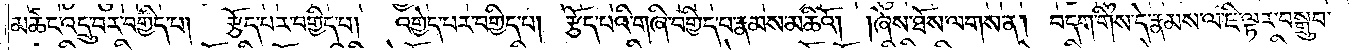མཚང་འདྲུ་བར་བགྱིད་པ། རྩོད་པར་བགྱིད་པ། འགྱེད་པར་བགྱིད་པ། རྩོད་པའི་གཞི་བགྱིད་པ་རྣམས་མཆིའོ། །ཞེས་ཐོས་ལགས་ན། བདག་གིས་དེ་རྣམས་ལ་ཇི་ལྟར་བསྒྲུབ་
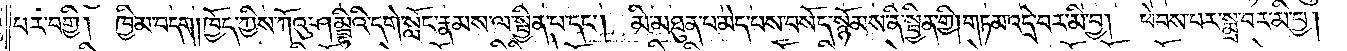པར་བགྱི། ཁྱིམ་བདག། ཁྱོད་ཀྱིས་ཀོའུ་ཤམྦྷིའི་དགེ་སློང་རྣམས་ལ་སྦྱིན་པ་དང༌། མི་མཐུན་པ་མེད་པས་བསོད་སྙོམས་ནི་སྦྱིན་གྱི། གཏམ་འདྲི་བར་མི་བྱ། ཕེབས་པར་སྨྲ་བར་མི་བྱ།
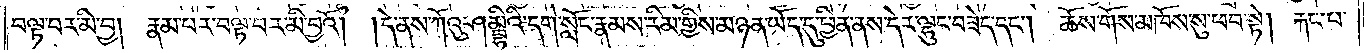བལྟ་བར་མི་བྱ། རྣམ་པར་བལྟ་བར་མི་བྱའོ། །དེ་ནས་ཀོའུ་ཤམྦྷིའི་དགེ་སློང་རྣམས་རིམ་གྱིས་མཉན་ཡོད་དུ་ཕྱིན་ནས་དེར་ལྷུང་བཟེད་དང༌། ཆོས་གོས་མཁོས་སུ་ཕབ་སྟེ། རྐང་པ་
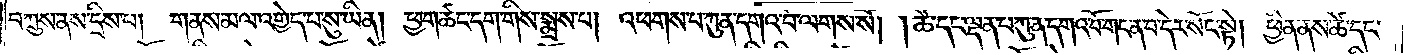བཀྲུས་ནས་དྲིས་པ།<gap>གནས་མལ་འགྱེད་པ་སུ་ཡིན། ཕྱག་ཚང་དག་གིས་སྨྲས་པ། འཕགས་པ་ཀུན་དགའ་བོ་ལགས་སོ། །ཚེ་དང་ལྡན་པ་ཀུན་དགའ་བོ་གང་ན་བ་དེར་སོང་སྟེ། ཕྱིན་ན་ཚེ་དང་
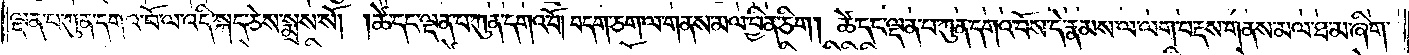ལྡན་པ་ཀུན་དགའ་བོ་ལ་འདི་སྐད་ཅེས་སྨྲས་སོ། །ཚེ་དང་ལྡན་པ་ཀུན་དགའ་བོས་བདག་ཅག་ལ་གནས་མལ་བྱིན་ཅིག། ཚེ་དང་ལྡན་པ་ཀུན་དགའ་བོས་དེ་རྣམས་ལ་ལག་བརྡས་གནས་མལ་ཐ་མ་ཞིག་
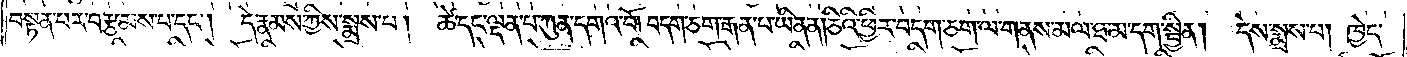བསྟན་པར་བརྩམས་པ་དང༌། དེ་རྣམས་ཀྱིས་སྨྲས་པ། ཚེ་དང་ལྡན་པ་ཀུན་དགའ་བོ། བདག་ཅག་རྒན་པ་ཡིན་ན། ཅིའི་ཕྱིར་བདག་ཅག་ལ་གནས་མལ་ཐ་མ་དག་སྦྱིན། དེ་སྨྲས་པ། ཁྱེད་
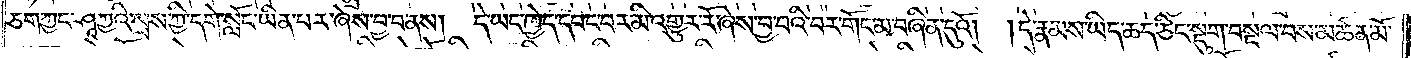ཅག་ཀྱང་ཤཱཀྱའི་སྲས་ཀྱི་དགེ་སློང་ཡིན་པར་ཞེས་བྱ་བ་ནས། དེ་ཡང་ཁྱེད་དབང་བར་མི་འགྱུར་རོ་ཞེས་བྱ་བའི་བར་གོང་མ་བཞིན་དུའོ། །དེ་རྣམས་ཡིད་ཆད་ཅིང་སྡུག་བསྔལ་བས་མཚན་མོ་
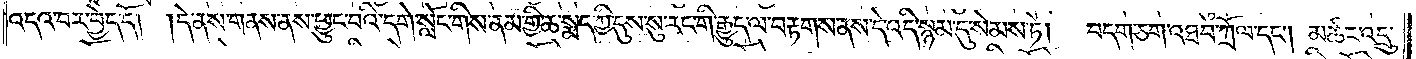འདའ་བར་བྱེད་དོ། །དེ་ནས་གནས་ནས་ཕྱུང་བའི་དགེ་སློང་གིས་ནམ་གྱི་ཆ་སྨད་ཀྱི་དུས་སུ་རང་གི་རྒྱུད་ལ་བརྟགས་ནས་དེ་འདི་སྙམ་དུ་སེམས་ཏེ།<gap>བདག་ཅག་འཐབ་ཀྲོལ་དང༌། མཚང་འདྲུ་
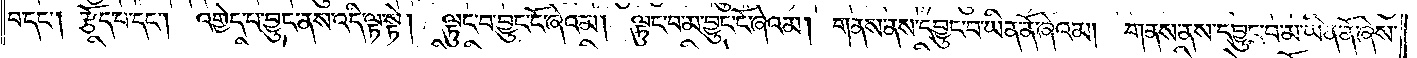བ་དང༌། རྩོད་པ་དང༌། འགྱེད་པ་བྱུང་ནས་འདི་ལྟ་སྟེ། ལྟུང་བ་བྱུང་ངོ་ཞེའམ། ལྟུང་བ་མ་བྱུང་ངོ་ཞེའམ། གནས་ནས་དབྱུང་བ་ཡིན་ནོ་ཞེའམ། གནས་ནས་དབྱུང་བ་མ་ཡིན་ནོ་ཞེས་
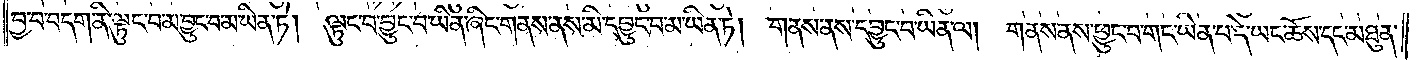བྱ་བ་བདག་ནི་ལྟུང་བ་མ་བྱུང་བ་མ་ཡིན་ཏེ། ལྟུང་བ་བྱུང་བ་ཡིན་ཞིང་གནས་ནས་མི་དབྱུང་བ་མ་ཡིན་ཏེ། གནས་ནས་དབྱུང་བ་ཡིན་ལ། གནས་ནས་ཕྱུང་བ་གང་ཡིན་པ་དེ་ཡང་ཆོས་དང་མཐུན་
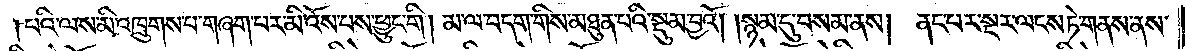པའི་ལས་མི་འཁྲུགས་པ་གཞག་པར་མི་འོས་པས་ཕྱུང་གི། མ་ལ་བདག་གིས་མཐུན་པའི་སྡུམ་བྱའོ། །སྙམ་དུ་བསམ་ནས། ནང་པར་སྔར་ལངས་ཏེ་གནས་ནས་
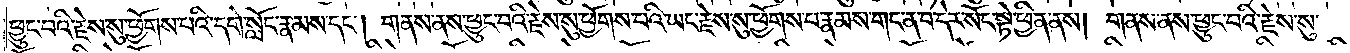ཕྱུང་བའི་རྗེས་སུ་ཕྱོགས་པའི་དགེ་སློང་རྣམས་དང༌། གནས་ནས་ཕྱུང་བའི་རྗེས་སུ་ཕྱོགས་པའི་ཡང་རྗེས་སུ་ཕྱོགས་པ་རྣམས་གང་ན་བ་དེར་སོང་སྟེ་ཕྱིན་ནས། གནས་ནས་ཕྱུང་བའི་རྗེས་སུ་
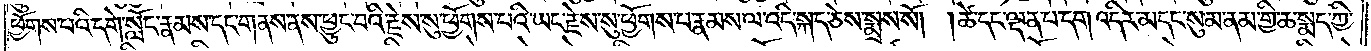ཕྱོགས་པའི་དགེ་སློང་རྣམས་དང་གནས་ནས་ཕྱུང་བའི་རྗེས་སུ་ཕྱོགས་པའི་ཡང་རྗེས་སུ་ཕྱོགས་པ་རྣམས་ལ་འདི་སྐད་ཅེས་སྨྲས་སོ། །ཚེ་དང་ལྡན་པ་དག་འདིར་མདང་སུམ་ནམ་གྱི་ཆ་སྨད་ཀྱི་
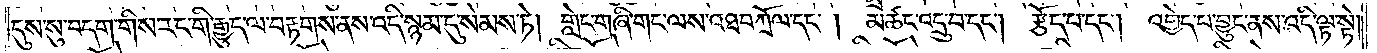དུས་སུ་བདག་གིས་རང་གི་རྒྱུད་ལ་བརྟགས་ནས་འདི་སྙམ་དུ་སེམས་ཏེ། གླེང་གཞི་གང་ལས་འཐབ་ཀྲོལ་དང༌། མཚང་འདྲུ་བ་དང༌། རྩོད་པ་དང༌། འགྱེད་པ་བྱུང་ནས་འདི་ལྟ་སྟེ་
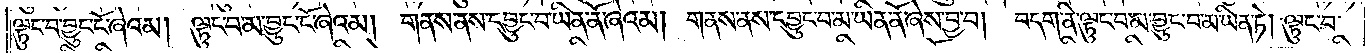ལྟུང་བ་བྱུང་ངོ་ཞེའམ། ལྟུང་བ་མ་བྱུང་ངོ་ཞེའམ། གནས་ནས་དབྱུང་བ་ཡིན་ནོ་ཞེའམ། གནས་ནས་དབྱུང་བ་མ་ཡིན་ནོ་ཞེས་བྱ་བ། བདག་ནི་ལྟུང་བ་མ་བྱུང་བ་མ་ཡིན་ཏེ། ལྟུང་བ་
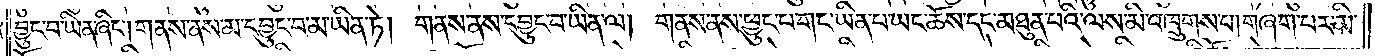བྱུང་བ་ཡིན་ཞིང༌། གནས་ནས་མ་དབྱུང་བ་མ་ཡིན་ཏེ། གནས་ནས་དབྱུང་བ་ཡིན་ལ། གནས་ནས་ཕྱུང་བ་གང་ཡིན་པ་ཡང་ཆོས་དང་མཐུན་པའི་ལས་མི་འཁྲུགས་པ། གཞག་པར་མི་
